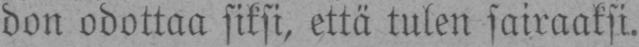don odottaa siksi, että tulen sairaaksi.
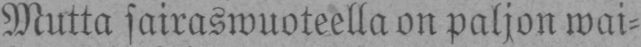Mutta sairaswuoteella on paljon wai-
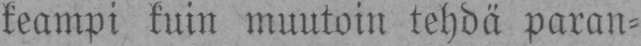keampi kuin muutoin tehdä paran-
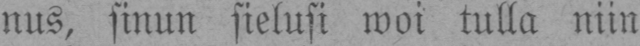nus, sinun sielusi woi tulla niin
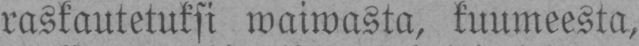raskautetuksi waiwasta, kuumeesta,
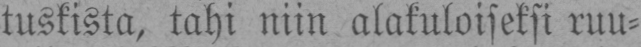tuskista, tahi niin alakuloiseksi ruu-
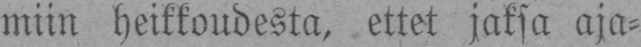miin heikkoudesta, ettet jaksa aja-
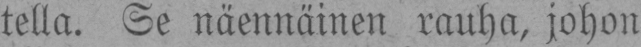tella. Se näennäinen rauha, johon
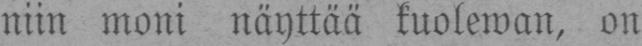niin moni näyttää kuolewan, on
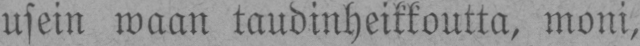usein waan taudinheikkoutta, moni,
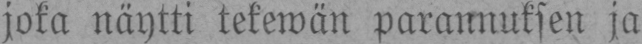joka näytti tekewän parannuksen ja
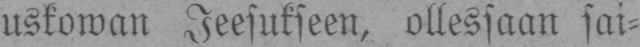uskowan Jeesukseen, ollessaan sai-
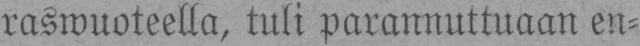raswuoteella, tuli parannuttuaan en-
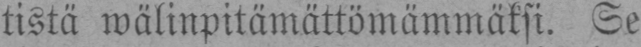tistä wälinpitämättömämmäksi. Se
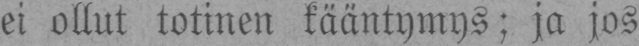ei ollut totinen kääntymys; ja jos
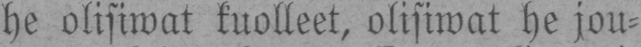he olisiwat kuolleet, olisiwat he jou-
